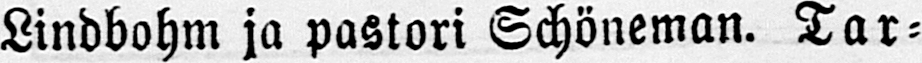Lindbohm ja pastori Schöneman. Tar-
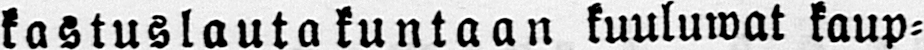kastuslautakuntaan kuuluwat kaup-
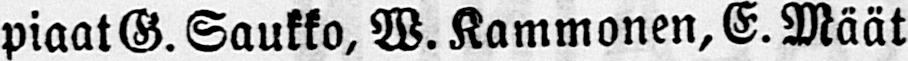piaat G. Saukko, W. Kammonen, E. Määt-
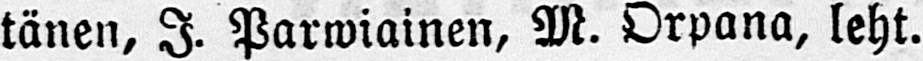tänen, I. Parwiainen, M. Orpana, leht.
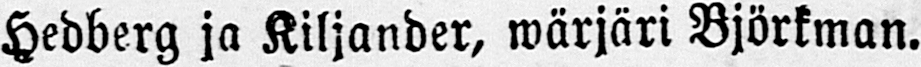Hedberg ja Kiljander, wärjäri Björkman.
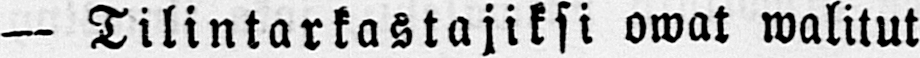— Tilintarkastajiksi owat walitut
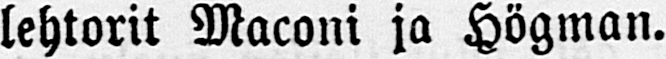lehtorit Maconi ja Högman.
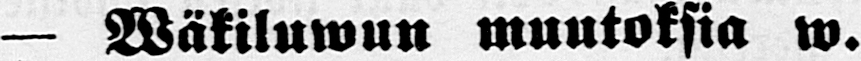— Wäkiluwun muutoksia w.
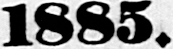1885.
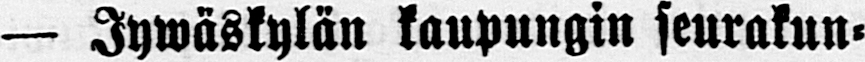— Jywäskylän kaupungin seurakun-
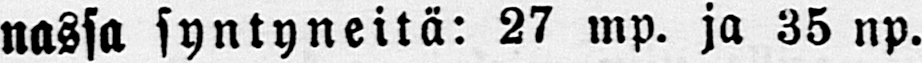nassa syntyneitä: 27 mp. ja 35 np.
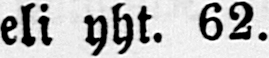eli yht. 62.
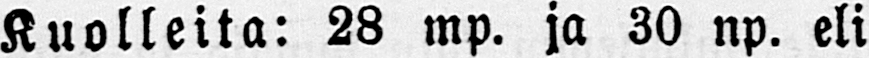Kuolleita: 28 mp. ja 30 np. eli
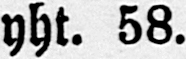yht. 58.
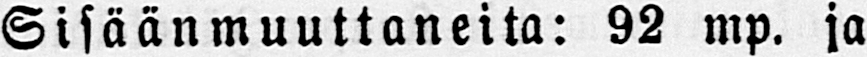Sisäänmuuttaneita: 92 mp. ja
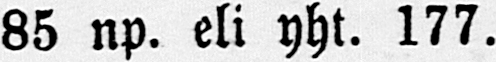85 np. eli yht. 177.
